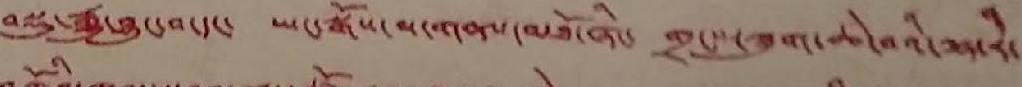བསྡུ་རྒྱུ་བྱུང་བ་དང་ ཡང་སྒོས་ས་གནས་མཐོ་ཞིང་ གྲངས་ཟུག་ཆེ་བའི་ལྷ་རི་
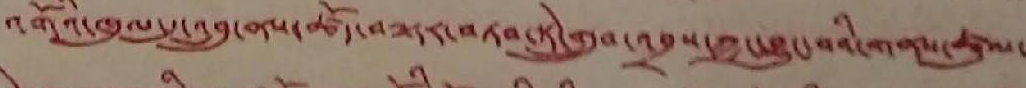འགོའི་ཁུལ་དུ་འབྲུ་ནས་ཚོད་བལྟར་བཏབ་ཏེ་གྲུབ་འབྲས་ཀྱང་བྱུང་བའི་གནས་ཚུལ་
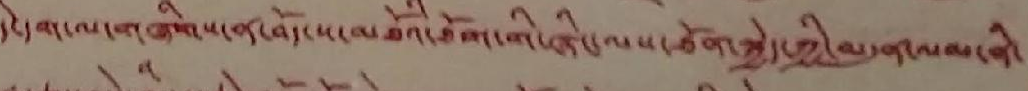དེ་དག་ལ་གཞིགས་ན་བོད་ས་མཐོའི་ཐོག་གི་ཞིང་ལས་ཐོན་སྐྱེད་ཀྱི་མདུན་ལམ་ནི་
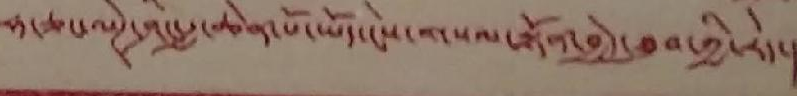ཧ་ཅང་ལེཊ་ཤིང་རྒྱ་ཆེན་པོ་ཡོད་ངེས་གསལ་སྟོན་བྱེད་ཐུབ་ཀྱི་རེད་།
